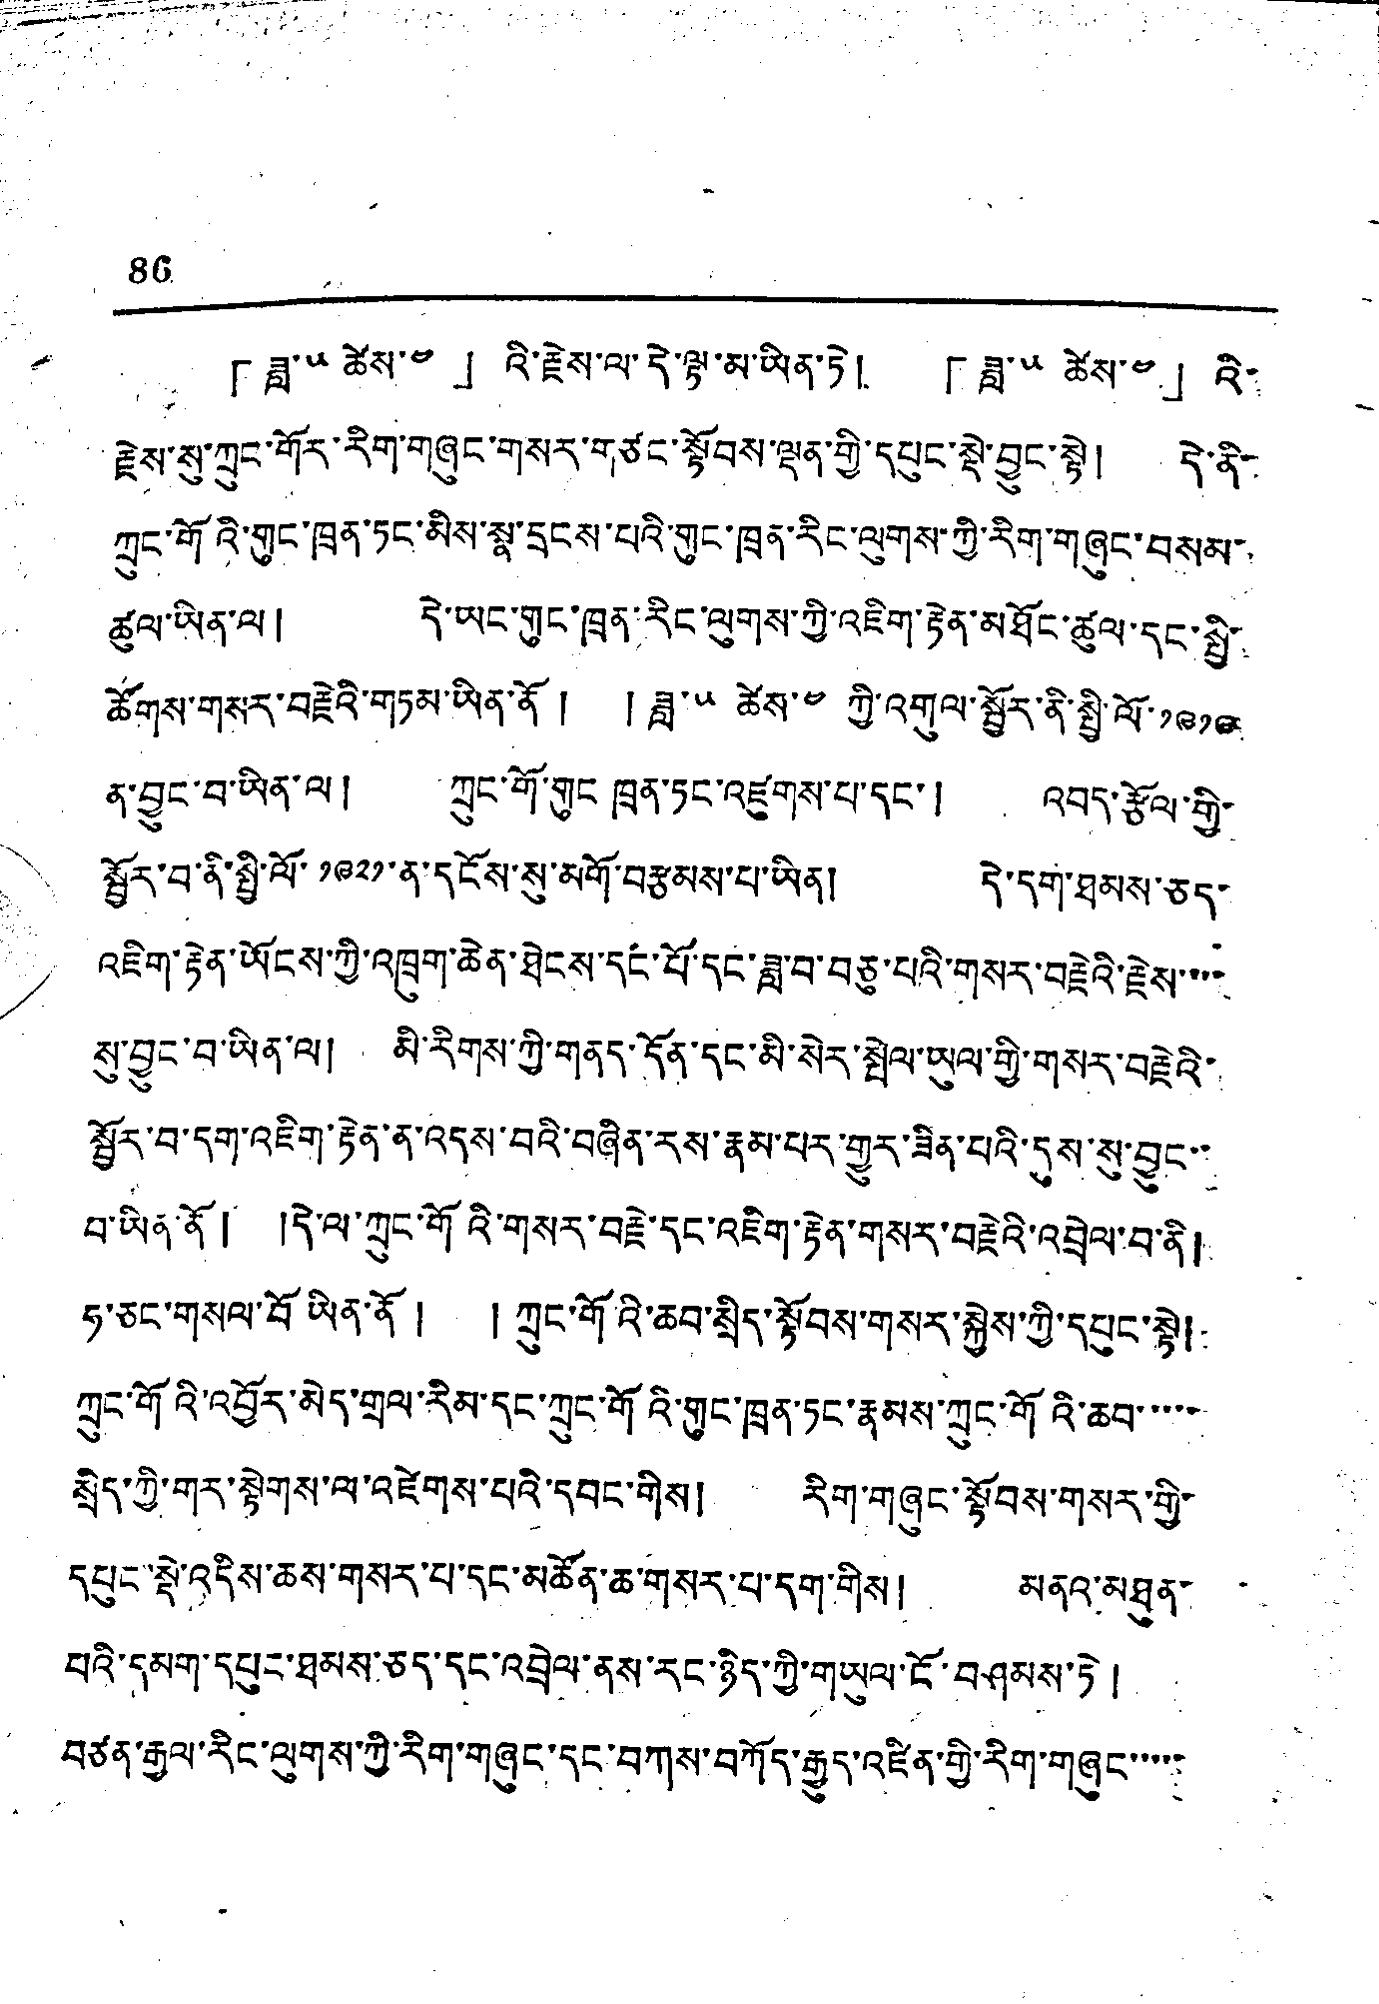86
「ཟླ་༥ ཚེས་༤ 」འི་རྗེས་ལ་དེ་ལྟ་མ་ཡིན་ཏེ། 「ཟླ་༥ ཚེས་༤ 」འི་
རྗེས་སུ་ཀྲུང་གོར་རིག་གཞུང་གསར་གཙང་སྟོབས་ལྡན་གྱི་དཔུང་སྡེ་བྱུང་སྟེ། དེ་ནི་
ཀྲུང་གོའི་གུང་ཁྲན་ཏང་མིས་སྣ་དྲངས་པའི་གུང་ཁྲན་རིང་ལུགས་ཀྱི་རིག་གཞུང་བསམ་
ཚུལ་ཡིན་ལ། དེ་ཡང་གུང་ཁྲན་རིང་ལུགས་ཀྱི་འཇིག་རྟེན་མཐོང་ཚུལ་དང་སྤྱི་
ཚོགས་གསར་བརྗེའི་གཏམ་ཡིན་ནོ ། ། ཟླ་༥ ཚེས་༤ ཀྱི་འགུལ་སྦྱོར་ནི་སྤྱི་ལོ་༡༩༡༩
ན་བྱུང་བ་ཡིན་ལ། ཀྲུང་གོ་གུང ཁྲན་ཏང་འཛུགས་པ་དང་། འབད་རྩོལ་གྱི་
སྦྱོར་བ་ནི་སྤྱི་ལོ་༡༩༢༡་ན་དངོས་སུ་མགོ་བརྩམས་པ་ཡིན། དེ་དག་ཐམས་ཅད་
འཇིག་རྟེན་ཡོངས་ཀྱི་འཁྲུག་ཆེན་ཐེངས་དང་པོ་དང་ཟླ་བ་བཅུ་པའི་གསར་བརྗེའི་རྗེས་་་་
སུ་བྱུང་བ་ཡིན་ལ། མི་རིགས་ཀྱི་གནད་དོན་དང་མི་སེར་སྤེལ་ཡུལ་གྱི་གསར་བརྗེའི་
སྦྱོར་བ་དག་འཇིག་རྟེན་ན་འདས་བའི་བཞིན་རས་རྣམ་པར་གྱུར་ཟིན་པའི་དུས་སུ་བྱུང་་
བ་ཡིན་ནོ ། །དེ་ལ་ཀྲུང་གོའི་གསར་བརྗེ་དང་འཇིག་རྟེན་གསར་བརྗེའི་འབྲེལ་བ་ནི།
ཧ་ཅང་གསལ་བོ་ཡིན་ནོ ། ། ཀྲུང་གོའི་ཆབ་སྲིད་སྟོབས་གསར་སྐྱེས་ཀྱི་དཔུང་སྟེ།
ཀྲུང་གོའི་འབྱོར་མེད་གྲལ་རིམ་དང་ཀྲུང་གོའི་གུང་ཁྲན་ཏང་རྣམས་ཀྲུང་གོའི་ཆབ་་་་་
སྲིད་ཀྱི་གར་སྟེགས་ལ་འཛེགས་པའི་དབང་གིས། རིག་གཞུང་སྟོབས་གསར་གྱི་
དཔུང་སྡེ་འདིས་ཆས་གསར་པ་དང་མཚོན་ཆ་གསར་པ་དག་གིས། མནའ་མཐུན་
པའི་དམག་དཔུང་ཐམས་ཅད་དང་འབྲེལ་ནས་རང་ཉིད་ཀྱི་གཡུལ་ངོ་བཤམས་ཏེ །
བཙན་རྒྱལ་རིང་ལུགས་ཀྱི་རིག་གཞུང་དང་བཀས་བཀོད་རྒྱུད་འཛིན་གྱི་རིག་གཞུང་་་་་
